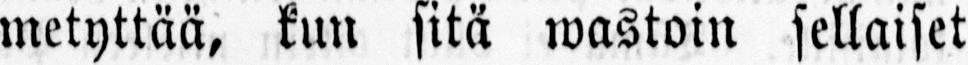metyttää, kun sitä wastoin sellaiset
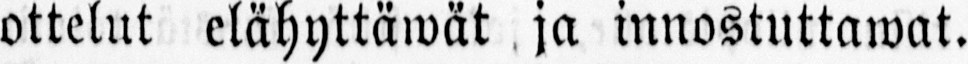ottelut elähyttäwät ja innostuttawat.
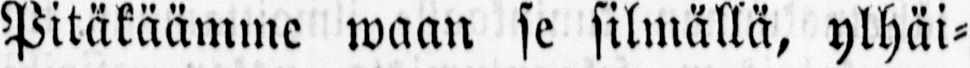Pitäkäämme waan se silmällä, ylhäi-
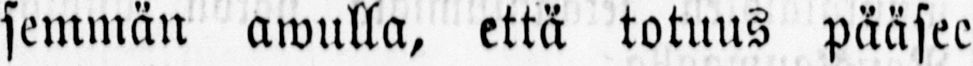semmän awulla, että totuus pääsee
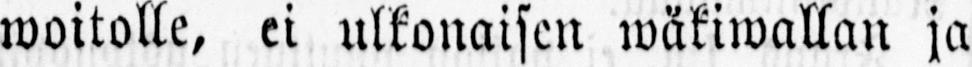woitolle, ei ulkonaisen wäkiwallan ja
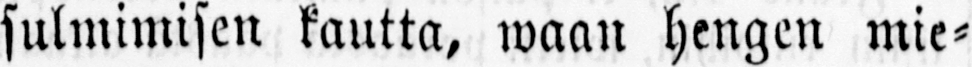sulmimisen kautta, waan hengen mie-
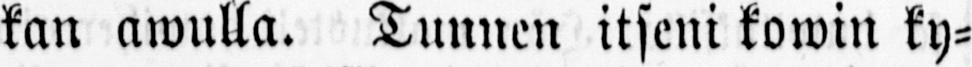kan awulla. Tunnen itseni kowin ky-
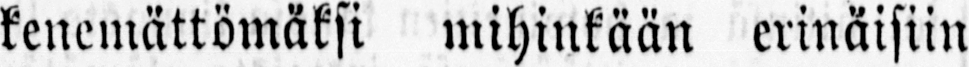kenemättömäksi mihinkään erinäisiin
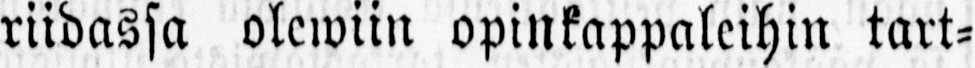riidassa olewiin opinkappaleihin tart-
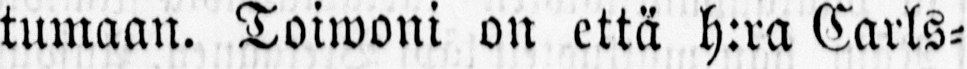tumaan. Toiwoni on että h:ra Carls-
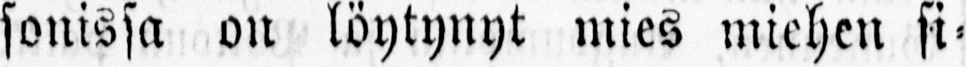sonissa on löytynyt mies miehen si-
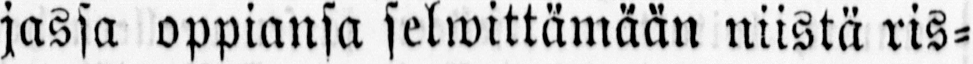jassa oppiansa selwittämään niistä ris-
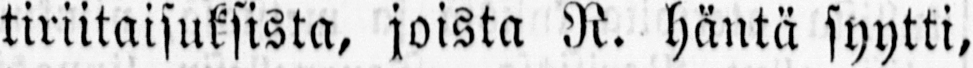tiriitaisuksista, joista R. häntä syytti,
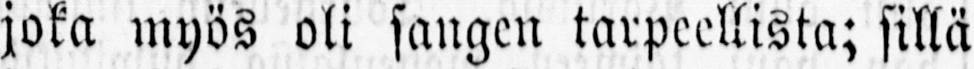joka myös oli sangen tarpeellista; sillä
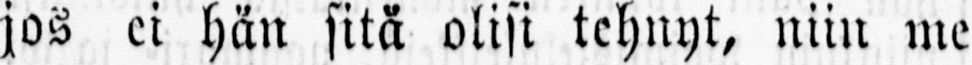jos ei hän sitä olisi tehnyt, niin me
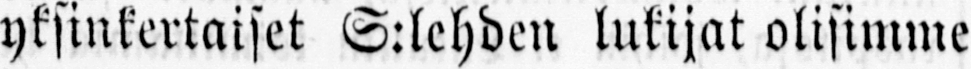yksinkertaiset S:lehden lukijat olisimme
